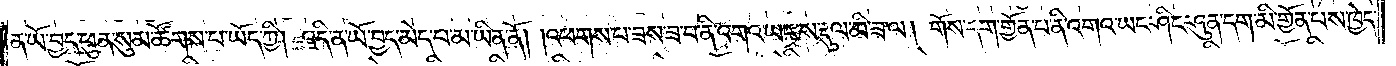ན་ཡོ་བྱད་ཕུན་སུམ་ཚོགས་པ་ཡོད་ཀྱི། འདི་ན་ཡོ་བྱད་མེད་པ་མ་ཡིན་ནོ། །འཕགས་པ་ཟས་ཟ་བ་ནི་འགའ་ཡང་ས་རྡུལ་མི་ཟ་ལ། གོས་དག་གྱོན་པ་ནི་འགའ་ཡང་ཤིང་ཤུན་དག་མི་གྱོན་པས་ཁྱེད་
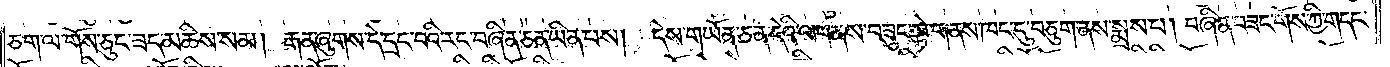ཅག་ལ་གོས་ཅུང་ཟད་མཆིས་སམ། རྒན་ཞུགས་དེ་དྲང་བའི་རང་བཞིན་ཅན་ཡིན་པས། དེས་གཡོན་ཅན་དེའི་ལག་ནས་བཟུང་སྟེ་གནས་ཁང་དུ་བཅུག་ནས་སྨྲས་པ། བཞིན་བཟང་གོས་ཀྱི་གདང་
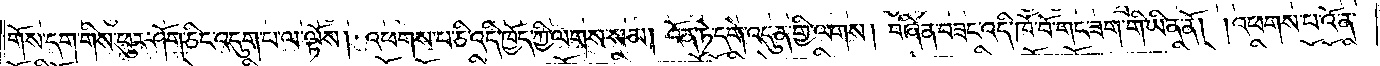གོས་དག་གིས་ཕུར་ཤོག་ཅིང་འདུག་པ་ལ་ལྟོས། འཕགས་པ་ཅི་འདི་ཁྱོད་ཀྱི་ལགས་སམ། འོན་ཏེ་དགེ་འདུན་གྱི་ལགས། བཞིན་བཟང་འདི་ཁོ་བོ་གང་ཟག་གི་ཡིན་ནོ། །འཕགས་པ་འོ་ན་
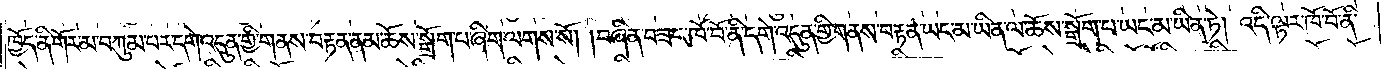ཁྱོད་ནི་གོར་མ་བཀུམ་པར་དགེ་འདུན་གྱི་གནས་བརྟན་ནམ་ཆོས་སྒྲོག་པ་ཞིག་ལགས་སོ། །བཞིན་བཟང་ཁོ་བོ་ནི་དགེ་འདུན་གྱི་གནས་བརྟན་ཡང་མ་ཡིན་ལ་ཆོས་སྒྲོག་པ་ཡང་མ་ཡིན་ཏེ། འདི་ལྟར་ཁོ་བོ་ནི་
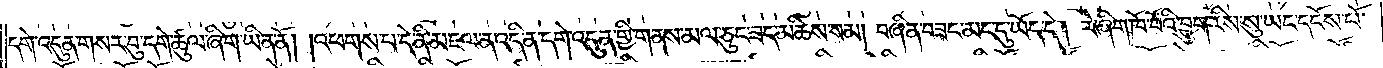དགེ་འདུན་གསར་བུ་དགེ་ཚུལ་ཞིག་ཡིན་ནོ། །འཕགས་པ་དེ་ནི་མཇལ་ན་འདི་ན་དགེ་འདུན་གྱི་གནས་མལ་ཅུང་ཟད་མཆིས་སམ། བཞིན་བཟང་མང་དུ་ཡོད་དེ། རེ་ཞིག་ཁོ་བོའི་བྱུག་རིས་སུ་ཡང་དངོས་པོ་
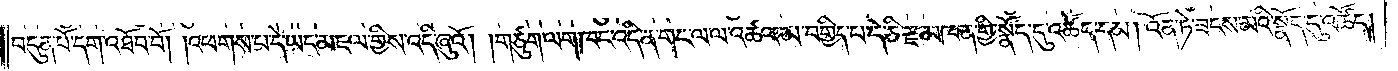བདུན་པོ་དག་འཐོབ་བོ། །འཕགས་པ་དེ་ཡང་མཇལ་གྱིས་འདི་ཞུའོ། །གཙུག་ལག་ཁང་འདི་ན་གང་ལ་ལ་འཚལ་མ་བགྱིད་པ་དེ་ཅི་རྫ་མཁན་གྱི་སྣོད་དུ་འཚོད་དམ། འོན་ཏེ་ཟངས་མའི་སྣོད་དུ་འཚོད།
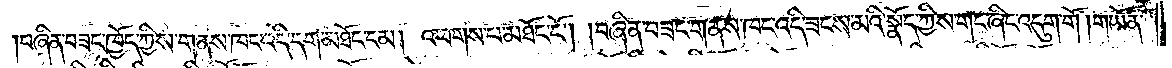།བཞིན་བཟང་ཁྱོད་ཀྱིས་གནས་ཁང་འདི་དག་མཐོང་ངམ། འཕགས་པ་མཐོང་ངོ༌། །བཞིན་བཟང་གནས་ཁང་འདི་ཟངས་མའི་སྣོད་ཀྱིས་གང་ཞིང་འདུག་གོ །གཡོན་
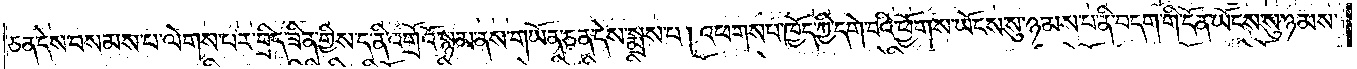ཅན་དེས་བསམས་པ་ལེགས་པར་བྲིད་ཟིན་གྱིས་ད་ནི་འགྲོའོ་སྙམ་ནས་གཡོན་ཅན་དེས་སྨྲས་པ། འཕགས་པ་ཁྱོད་ཀྱི་དགེ་བའི་ཕྱོགས་ཡོངས་སུ་ཉམས་པ་ནི་བདག་གི་དོན་ཡོངས་སུ་ཉམས་
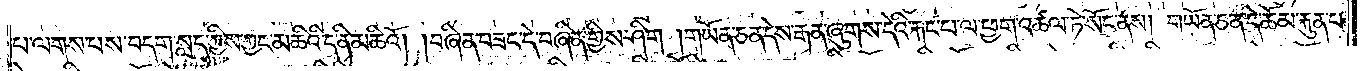པ་ལགས་པས་བདག་སླད་ཀྱིས་ཀྱང་མཆིའི་ད་ནི་མཆིའོ། །བཞིན་བཟང་དེ་བཞིན་གྱིས་ཤིག །གཡོན་ཅན་དེས་རྒན་ཞུགས་དེའི་རྐང་པ་ལ་ཕྱག་འཚལ་ཏེ་སོང་ནས། གཡོན་ཅན་དེ་ཆོམ་རྐུན་པ་
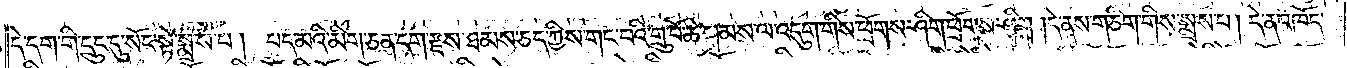དེ་དག་གི་དྲུང་དུ་སོང་སྟེ་སྨྲས་པ། པད་མའི་མིག་ཅན་དག་རྫས་ཐམས་ཅད་ཀྱིས་གང་བའི་གྲུ་བོ་ཆེ་སྐམས་ལ་འདུག་གིས་ཕྲོགས་ཤིག་ཕྲོགས་ཤིག །དེ་ནས་གཅིག་གིས་སྨྲས་པ། དེ་ན་འཁོད་
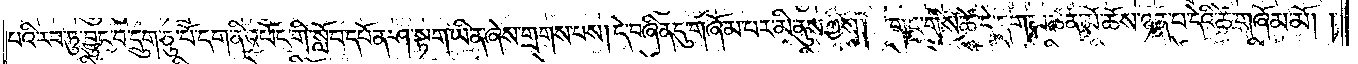པའི་རབ་ཏུ་བྱུང་བ་དྲུག་ཅུ་པོ་དག་ནི་འཕོང་གི་སློབ་དཔོན་ཤ་སྟག་ཡིན་ཞེས་གྲགས་པས། དེ་བཞིན་དུ་གཞོམ་པར་མི་ནུས་ཀྱིས། གང་གིས་ཚེ་དེ་དག་མཚན་མོ་ཆོས་ཉན་པ་དེའི་ཚེ་གཞོམ་མོ། །
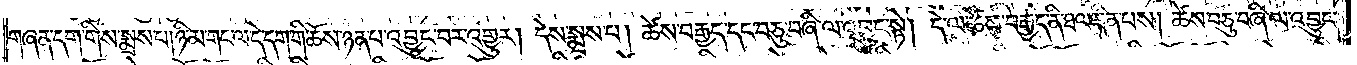གཞན་དག་གིས་སྨྲས་པ། ཉི་མ་གང་ལ་དེ་དག་གི་ཆོས་ཉན་པ་འབྱུང་བར་འགྱུར། དེས་སྨྲས་པ། ཚེས་བརྒྱད་དང་བཅུ་བཞི་ལ་འབྱུང་སྟེ། དེ་ལ་ཚེས་བརྒྱད་ནི་ཐལ་ཟིན་པས། ཚེས་བཅུ་བཞི་ལ་འབྱུང་
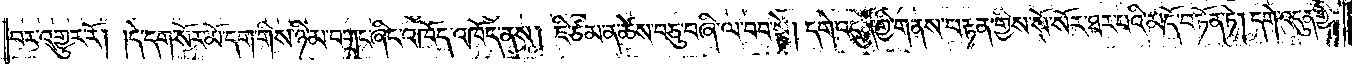བར་འགྱུར་རོ། །དེ་དག་སོར་མོ་དག་གིས་ཉི་མ་བགྲང་ཞིང་འཁོད་འཁོད་ནས། ཇི་ཙམ་ན་ཚེས་བཅུ་བཞི་ལ་བབ་སྟེ། དགེ་འདུན་གྱི་གནས་བརྟན་གྱིས་སོ་སོར་ཐར་པའི་མདོ་བཏོན་ཏེ། དགེ་འདུན་གྱི་
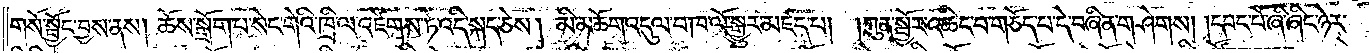གསོ་སྦྱོང་བྱས་ནས། ཆོས་སྒྲོག་པ་སེང་གེའི་ཁྲི་ལ་འཛེགས་ཏེ་འདི་སྐད་ཅེས། མི་མཆོག་འདུལ་བ་ཁ་ལོ་སྒྱུར་མཛད་པ། །ཀུན་སྦྱོར་འཆིང་བ་གཅོད་པ་དེ་བཞིན་གཤེགས། །དབང་པོ་ཞི་ཞིང་ཉེར་
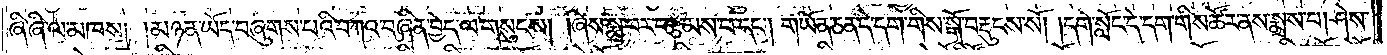ཞི་ཞི་ལ་མཁས། །མཉན་ཡོད་བཞུགས་པའི་བཀའ་བཞིན་བྱེད་ལ་གསུངས། །ཞེས་སྨྲ་བར་བརྩམས་པ་དང༌། གཡོན་ཅན་དེ་དག་གིས་སྒོ་བརྡུངས་སོ། །དགེ་སློང་དེ་དག་གིས་ཚོར་ནས་སྨྲས་པ། ཤེས་
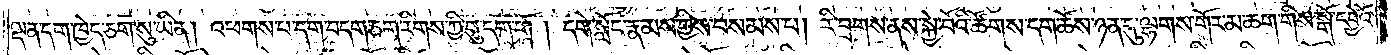ལྡན་དག་ཁྱེད་ཅག་སུ་ཡིན། འཕགས་པ་དག་བདག་ཅག་རིགས་ཀྱི་བུ་དག་གོ། དགེ་སློང་རྣམས་ཀྱིས་བསམས་པ། རི་བྲགས་ནས་སྐྱེ་བོའི་ཚོགས་དག་ཆོས་ཉན་དུ་ལྷགས་གོར་མ་ཆག་གིས་སྒོ་དབྱེའོ་
